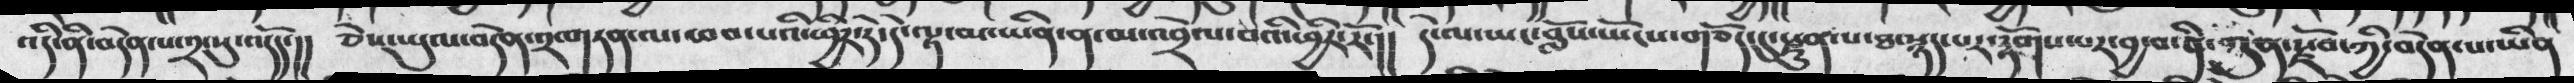འདི་ནི་བདེན་པ་༢་སུ་འདོད་།།  ཅེས་ཡུལ་བདེན་༢་གཏན་ལ་ཕབ་པའི་ཕྱིར་རེ་དེ་ལྟ་མ་ཡིན་ན་མ་འབྲེལ་བའི་ཕྱིར་རོ་།།  དེ་ལ་ཡང་བློས་ཡོང་གཅོད་དུ་རྫུན་པ་ཐ་སྙད་པར་རྟོགས་པར་བྱ་བ་ནི་ཀུན་རྫོབ་ཀྱི་བདེན་པ་ཡིན
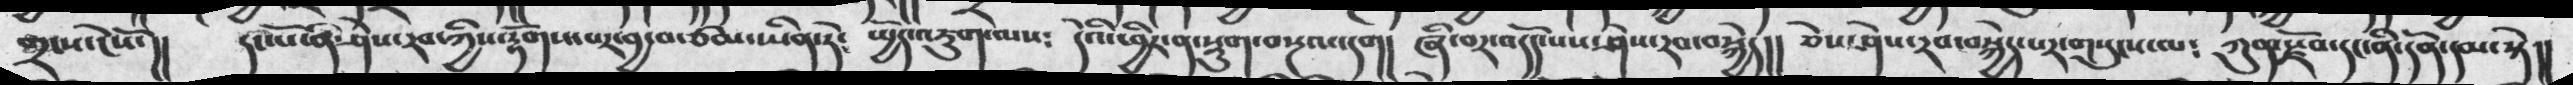གྲངས་ངེསོ་།།   དང་པོ་ན་ཤེས་རབ་ཀྱིས་རྟོགས་པར་བྱ་བ་ཙམ་ཡིན་ཏེ༴  སྤྱོད་འཇུག་ལས༴  དེ་ཕྱིར་ན་སྡུག་བསྔལ་དག།། ཞི་བར་འདོད་པས་ཤེས་རབ་བསྐྱེད།།  ཅེས་ཤེས་རབ་བསྐྱེད་པར་གསུངས་ལ༴  ཀུན་རྫོབ་དང་ནི་དོན་དམ་སྟེ།།
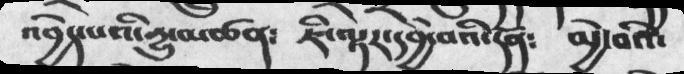འབྱེད་པའི་དྱུ་མཚན༴  ཇི་ལྟེར་དབྱེ་བའི་དོན༴   མྱེ་བའི་
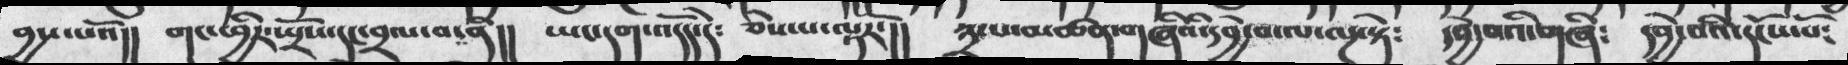བྱས་པའོ།།  གང་ཕྱིར་སྤྲོས་དང་བྲལ་བ་ནི།།  ཡང་དག་འདོད་དེ༴  ཅེས་པ་ལྟརོ།།  ༣་པ་མཚན་གཞིའི་དབྱེ་བ་ལ་ལྔ་སྟེ༴  དབྱེ་བའི་གཞི༴  དབྱེ་བའི་དངོས་པོ༴
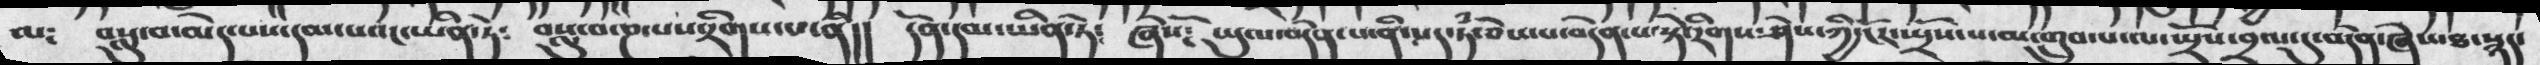མ༴  བསླུ་བ་མེད་པས་དམ་པའང་ཡིན་ཏེ༴  བསླུ་བ་ཎ་པས་རིགས་པ་ནི།  དོན་དམ་ཡིན་ཏེ༴  ཞེསོ༴  ཡུལ་བདེན་པ་ནི་སད་ཏཾ་ཅེས་པ་བདེན་པ་སྟེ་རིགས་ཤེས་ཀྱི་ངོར་སྤྲོས་པ་མ་གྲུབ་པ་ལ་སྤྲོས་བྲལ་དུ་བདེན་ཞེས་ཐ་སྙད་
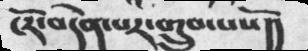ངོར་བདེན་པར་གྲུབ་པསོ།།
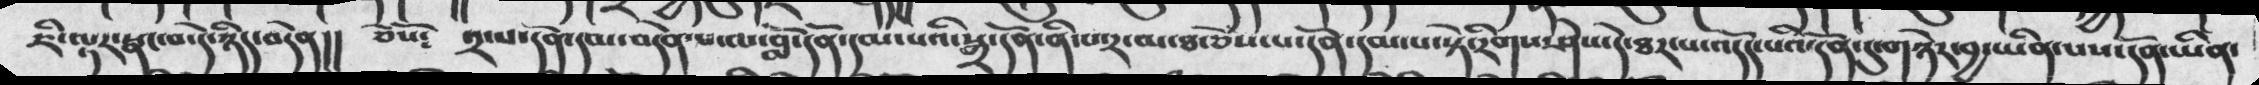ཇི་ལྟར་སྣང་བ་དེ་ཉིད་བདེན།།  ཅེསོ༴  ༢་པ་དོན་དམ་བདེན་པ་ལ་བློ་དོན་དམ་པའི་སྒྲ་དོན་ནི་པ་ར་མ་ཐ་དོན་དམ་པ་སྟེ་རིགས་ཤེས་དེ་ཐར་པ་འདོད་པའི་དོན་དུ་གཉེར་བྱ་ཡིན་པས་དོན་ཡིན་
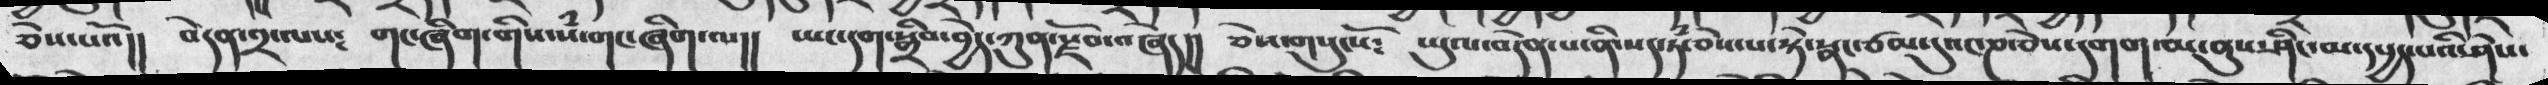ཅེས་པའོ།།   བདེན་༢་ལས༴      གང་ཞིག་གིས་སྃ་གང་ཞིག་ལ།།   ཡང་དག་སྒྲུབ་བྱེད་ཀུན་སྫོབ་བཞེད།།    ཅེས་གསུངསོ༴  ཡུལ་བདེན་པ་ནི་སད་ཏྃ་བེས་པ་སྟེ་སྣང་ཙམ་དུའང་ཎ་བེས་དགག་མ་ནུས་ཤིང་མ་དཔྱད་པའི་ཤེས་
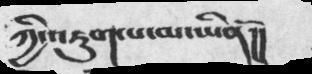ཀྱི་འཇུག་མ་ཡིནོ།།
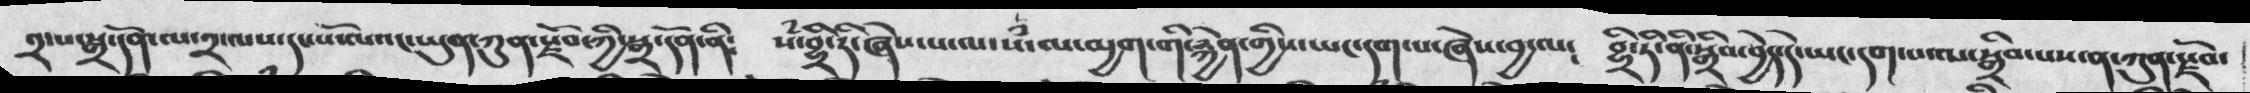༢་པ་སྒྲ་དོན་ལ་༢་ལས་དང་པོ་ལའང་ཡུན་ཀུན་རྫོབ་ཀྱི་སྒྲ་དོན་ནི༴  སཾ་བྷྲི་དི་ཞེས་པ་ལ་སཾ་ལ་མྱག་གི་རྐྱེན་གྱིས་ཡང་དག་པ་ཞེས་བྱ་ལ༴  བྷྲི་ཏི་ནི་སྒྲིབ་བྱེད་དེ་ཡང་དག་པ་ལ་སྒྲིབ་པས་ན་ཀུན་རྫོབ་
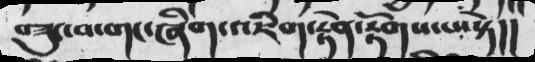བཟུང་གང་ཞིག་འཇིག་རྟེན་རྟོགས་པ་སྟེ།།
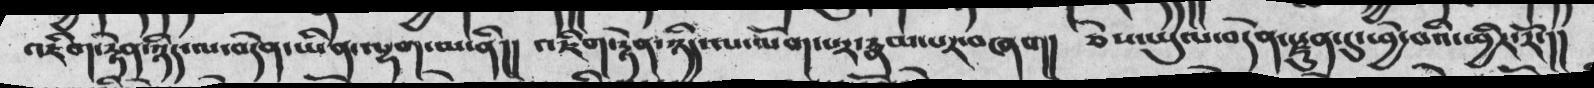འཇིག་རྟེན་ཉིད་ལ་བདེན་ཡིན་ལྷག་མ་ནི།།   འཇིག་རྟེན་ཉིད་ལ་ལོག་པར་རྣམ་པར་བཞག།   ཅེས་ཡུལ་བདེན་སྫུན་དུ་ཕྱེ་བའི་ཕྱིར་རོ་།།
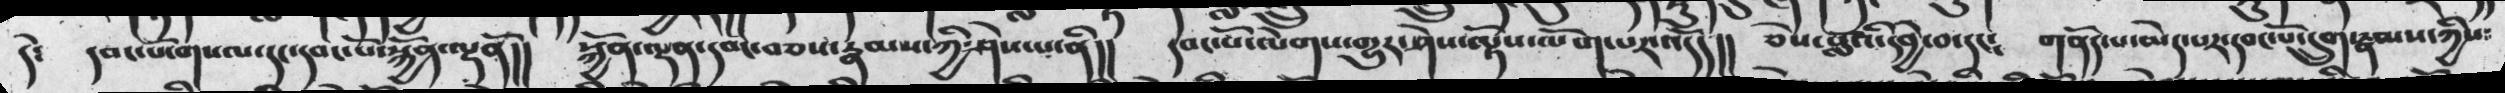དེ༴   དབང་པོ་གསལ་དང་དབང་པོ་སྐྱོན་ལྡནོ།།   སྐྱོན་ལྡན་དབང་བཅས་རྣམས་ཀྱི་ཤེས་པ་ནི།།  དབང་པོ་ལེགས་གྱུར་ཤེས་ལྟོས་ལོག་པར་འདོད།།  ཅེསབློའི་དབྱེ་དང༴  གནོད་པ་མེད་པར་དབང་པོ་དྲུག་རྣམས་ཀྱིས༴
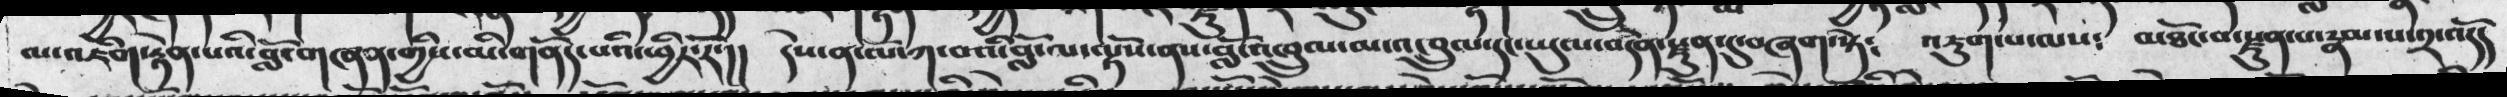ལ་འཇིག་རྟེན་པའི་བློ་གཞན་གྱིས་མི་གནོད་པའི་ཕྱིར་རོ་།།   དེས་ན་མོ་ཀ་བའི་བློ་ལ་ལྟོས་ནས་བློ་འཁྲུལ་མ་འཁྲུལ་དང་ཡུལ་བདེན་སྫུན་དུ་བཞག་སྟེ༴   འཇུག་པ་ལས༴   མཐོང་བ་སྫུན་པ་རྣམ་པ་༢་འདོད
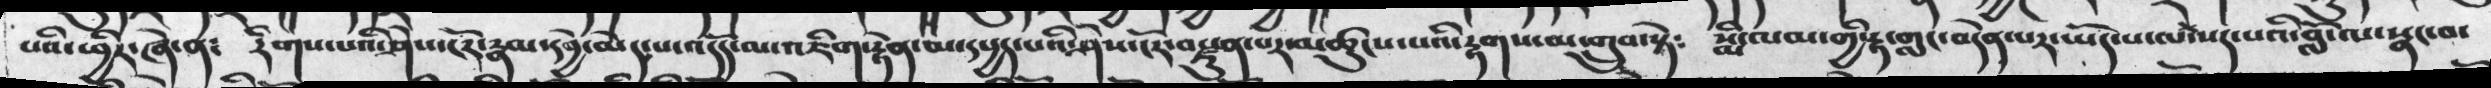པའི་ཕྱིར་ཞེ་ན༴   རིགས་པའི་ཤེས་ངོར་རྣམ་དབྱེ་མེད་པ་འདོད་ལ་འཇིག་རྟེན་མ་དཔྱད་པའི་ཤེས་ངོར་བསྫུན་པར་མཚུངས་པའི་རྟགས་མ་གྲུབ་སྟེ༴  སྨི་ལས་གྱི་རྟ་གླང་བདེན་པར་ཡོད་པ་ལ་སད་པའི་བློ་ལ་སྣང་བ་
